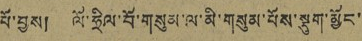པོ་བྱས། ལོ་ཧྲིལ་བོ་གསུམ་ལ་མི་གསུམ་པོས་སྡུག་མྱོང་
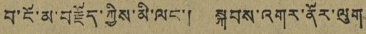བ་ངོ་མ་བརྗོད་ཀྱིས་མི་ལང་། སྐབས་འགར་ནོར་ལུག
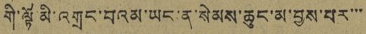གི་ལྟོ མི་འགྲང་བའམ་ཡང་ན་སེམས་ཆུང་མ་བྱས་པར་་་
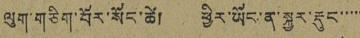ལུག་གཅིག་པོར་སོང་ཚེ། ཕྱིར་ཡོང་ན་སྐྱར་རྡུང་་་་་
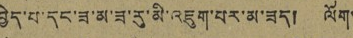བྱེད་པ་དང་ཟ་མ་ཟ་རུ་མི་འཇུག་པར་མ་ཟད། ལོག་
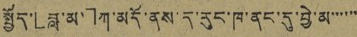སྤྱོད་「བླ་མ་」ཀ་མདོ་ནས་ད་རུང་ཁ་ནང་དུ་བྱེ་མ་་་་་་་
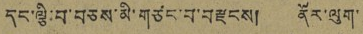དང་ལྕི་བ་བཅས་མི་གཙང་བ་བརྫངས། ནོར་ལུག་
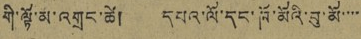གི་ལྟོ་མ་འགྲང་ཚེ། དཔའ་ལོ་དང་ཁོ་མོའི་བུ་མོ་་་་
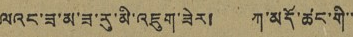ལའང་ཟ་མ་ཟ་རུ་མི་འཇུག་ཟེར། ཀ་མདོ་ཚང་གི་་་
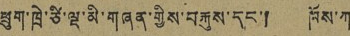ཕྲུག་ཁྲེ་ཙི་ལྡ་མི་གཞན་གྱིས་བརྐུས་དང་། ཁོས་ཀ་
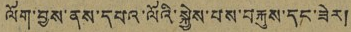ལོག་བྱས་ནས་དཔའ་ལོའི་སྐྱེས་པས་བརྐུས་དང་ཟེར།
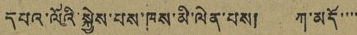དཔའ་ལོའི་སྐྱེས་པས་ཁས་མི་ལེན་པས། ཀ་མདོ་་་་་
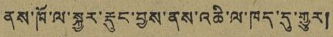ནས་ཁོ་ལ་སྐྱར་རྡུང་བྱས་ནས་འཆི་ལ་ཁད་དུ་གྱུར།
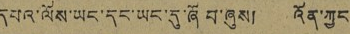དཔའ་ལོས་ཡང་དང་ཡང་དུ་ཞོ བ་ཞུས། འོན་ཀྱང་
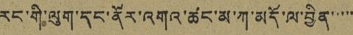རང་གི་ལུག་དང་ནོར་འགའ་ཚང་མ་ཀ་མདོ་ལ་བྱིན་་་་་་
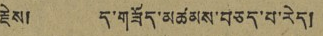རྗེས། ད་གཟོད་མཚམས་བཅད་པ་རེད།
